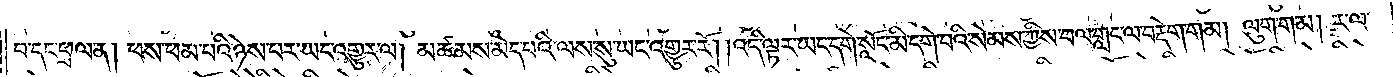བ་དང་ཕྲལ་ན། ཕས་ཕམ་པའི་ཉེས་པར་ཡང་འགྱུར་ལ། མཚམས་མེད་པའི་ལས་སུ་ཡང་འགྱུར་རོ། །འདི་ལྟར་ཡང་དགེ་སློང་མི་དགེ་བའི་སེམས་ཀྱིས་བལ་གླང་ལ་བརྡེག་གམ། ལུག་གམ། ར་ལ་
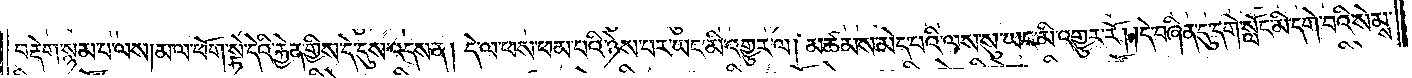བརྡེག་སྙམ་པ་ལས། མ་ལ་ཕོག་སྟེ་དེའི་རྐྱེན་གྱིས་དེ་དུས་འདས་ན། དེ་ལ་ཕས་ཕམ་པའི་ཉེས་པར་ཡང་མི་འགྱུར་ལ། མཚམས་མེད་པའི་ལས་སུ་ཡང་མི་འགྱུར་རོ། །དེ་བཞིན་དུ་དགེ་སློང་མི་དགེ་བའི་སེམས་
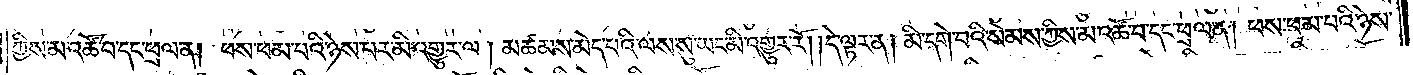ཀྱིས་མ་འཚོ་བ་དང་ཕྲལ་ན། ཕས་ཕམ་པའི་ཉེས་པར་མི་འགྱུར་ལ། མཚམས་མེད་པའི་ལས་སུ་ཡང་མི་འགྱུར་རོ། །དེ་ལྟར། མི་དགེ་བའི་སེམས་ཀྱིས་མ་འཚོ་བ་དང་ཕྲལ་ན། ཕས་ཕམ་པའི་ཉེས་
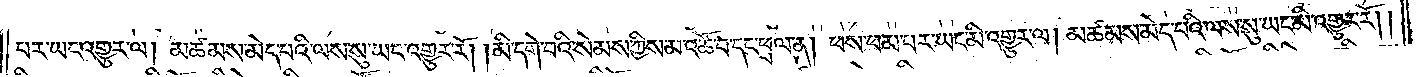པར་ཡང་འགྱུར་ལ། མཚམས་མེད་པའི་ལས་སུ་ཡང་འགྱུར་རོ། །མི་དགེ་བའི་སེམས་ཀྱིས་མ་འཚོ་བ་དང་ཕྲལ་ན། ཕས་ཕམ་པར་ཡང་མི་འགྱུར་ལ། མཚམས་མེད་པའི་ལས་སུ་ཡང་མི་འགྱུར་རོ། །
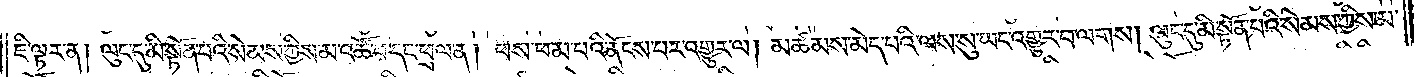ཇི་ལྟར་ན། ལུང་དུ་མི་སྟོན་པའི་སེམས་ཀྱིས་མ་འཚོ་བ་དང་ཕྲལ་ན། ཕས་ཕམ་པའི་ནོངས་པར་འགྱུར་ལ། མཚམས་མེད་པའི་ལས་སུ་ཡང་འགྱུར་བ་ལགས། ལུང་དུ་མི་སྟོན་པའི་སེམས་ཀྱིས་མ་
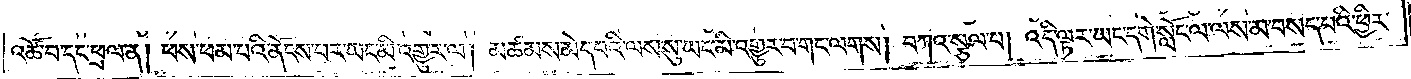འཚོ་བ་དང་ཕྲལ་ན། ཕས་ཕམ་པའི་ནོངས་པར་ཡང་མི་འགྱུར་ལ། མཚམས་མེད་པའི་ལས་སུ་ཡང་མི་འགྱུར་བ་གང་ལགས། བཀའ་སྩལ་པ། འདི་ལྟར་ཡང་དགེ་སློང་ལ་ལས་མ་བསད་པའི་ཕྱིར་
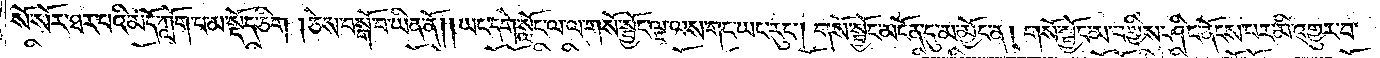སོ་སོར་ཐར་བའི་མདོ་ཀློག་པ་མ་སྡོད་ཅིག །ཅེས་བསྒོ་བ་ཡིན་ནོ། །ཡང་དགེ་སློང་ལ་ལ་གསོ་སྦྱོང་ལྔ་ལས་གང་ཡང་རུང༌། གསོ་སྦྱོང་མངོན་དུ་མ་མྱོང་ན། གསོ་སྦྱོང་མ་བགྱིས་ཤིང་ནོངས་པར་མི་འགྱུར་བ་
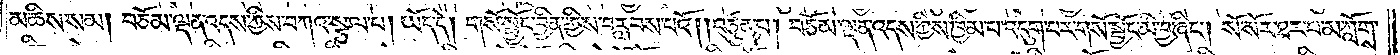མཆིས་སམ། བཅོམ་ལྡན་འདས་ཀྱིས་བཀའ་སྩལ་པ། ཡོད་དེ། གསོ་སྦྱོང་བྱིན་གྱིས་བརླབས་པའོ། །བཙུན་པ། བཅོམ་ལྡན་འདས་ཀྱིས་ཁྱིམ་པ་འདུག་པར་གསོ་སྦྱོང་མི་བྱ་ཞིང༌། སོ་སོར་ཐར་པ་མ་ཀློགས་
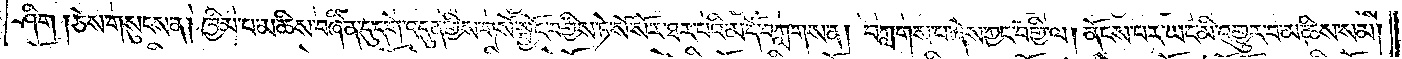ཤིག །ཅེས་གསུངས་ན། ཁྱིམ་པ་མཆིས་བཞིན་དུ་དགེ་འདུན་གྱིས་གསོ་སྦྱོང་བགྱིས་ཏེ་སོ་སོར་ཐར་པའི་མདོ་བཀླགས་ན། བཀླགས་པ་ཞེས་ཀྱང་བགྱི་ལ། ནོངས་པར་ཡང་མི་འགྱུར་བ་མཆིས་སམ།
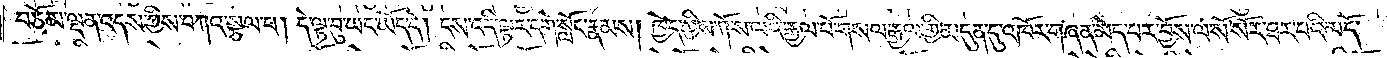བཅོམ་ལྡན་འདས་ཀྱིས་བཀའ་སྩལ་པ། དེ་ལྟ་བུ་ཡང་ཡོད་དེ། ངས་འདི་ལྟར་དགེ་སློང་རྣམས། ཁྱེད་ཀྱིས་ཀོ་ས་ལའི་རྒྱལ་པོ་གསལ་རྒྱལ་གྱི་མདུན་དུ་འཁོར་གཞན་མེད་པར་བྱོས་ལ་སོ་སོར་ཐར་པའི་མདོ་
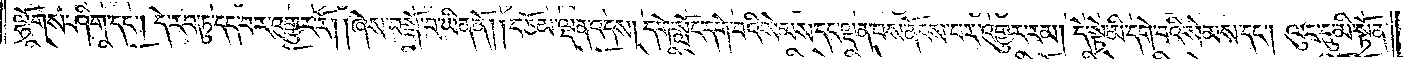ལྷོགས་ཤིག་དང༌། དེ་རབ་ཏུ་དད་པར་འགྱུར་རོ། །ཞེས་བསྒོ་བ་ཡིན་ནོ། །བཅོམ་ལྡན་འདས། དགེ་སློང་དགེ་བའི་སེམས་དང་ལྡན་པས་ནོངས་པར་འགྱུར་རམ། དེ་སྟེ་མི་དགེ་བའི་སེམས་དང༌། ལུང་དུ་མི་སྟོན་
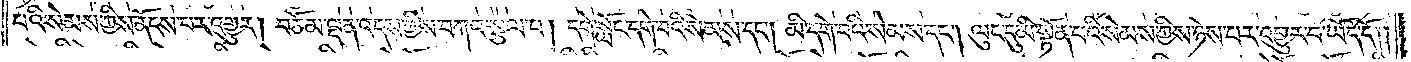པའི་སེམས་ཀྱིས་ནོངས་པར་འགྱུར། བཅོམ་ལྡན་འདས་ཀྱིས་བཀའ་སྩལ་པ། དགེ་སློང་དགེ་བའི་སེམས་དང༌། མི་དགེ་བའི་སེམས་དང༌། ལུང་དུ་མི་སྟོན་པའི་སེམས་ཀྱིས་ཉེས་པར་འགྱུར་བ་ཡོད་དོ། །
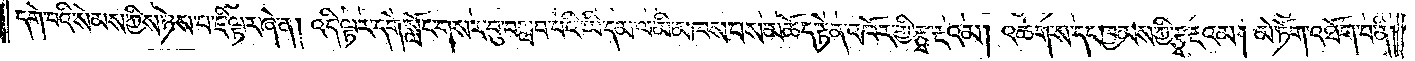དགེ་བའི་སེམས་ཀྱིས་ཉེས་པ་ཇི་ལྟར་ཞེ་ན། འདི་ལྟར་དགེ་སློང་གསར་བུ་བསླབ་པའི་ཡི་དམ་ལ་མི་མཁས་པས་མཆོད་རྟེན་འཁོར་གྱི་རྩྭ་རྔའམ། འཆགས་དང་ཁྱམས་ཀྱི་རྩྭ་རྔའམ། མེ་ཏོག་འཐོག་བ་ནི།
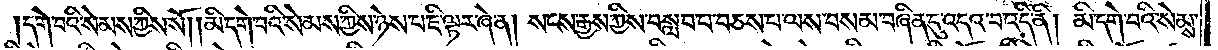དགེ་བའི་སེམས་ཀྱིས་སོ། །མི་དགེ་བའི་སེམས་ཀྱིས་ཉེས་པ་ཇི་ལྟར་ཞེ་ན། སངས་རྒྱས་ཀྱིས་བསླབ་པ་བཅས་པ་ལས་བསམ་བཞིན་དུ་འདའ་བ་འདི་ནི། མི་དགེ་བའི་སེམས་
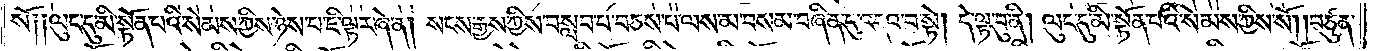སོ༑ ༑ལུང་དུ་མི་སྟོན་པའི་སེམས་ཀྱིས་ཉེས་པ་ཇི་ལྟར་ཞེ་ན། སངས་རྒྱས་ཀྱིས་བསླབ་པ་བཅས་པ་ལས་མ་བསམ་བཞིན་དུ་འདའ་བ་སྟེ། དེ་ལྟ་བུ་ནི། ལུང་དུ་མི་སྟོན་པའི་སེམས་ཀྱིས་སོ། །བཙུན་
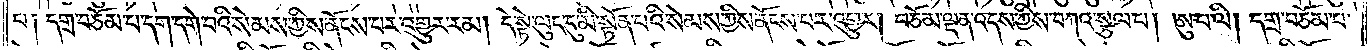པ༑ དགྲ་བཅོམ་པ་དག་དགེ་བའི་སེམས་ཀྱིས་ནོངས་པར་འགྱུར་རམ། དེ་སྟེ་ལུང་དུ་མི་སྟོན་པའི་སེམས་ཀྱིས་ནོངས་པར་འགྱུར། བཅོམ་ལྡན་འདས་ཀྱིས་བཀའ་སྩལ་པ། ཨུ་པ་ལི། དགྲ་བཅོམ་པ་
